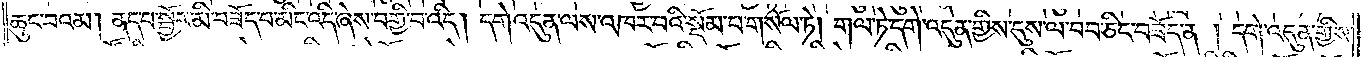ཆུང་བའམ། ནད་པ་སྦྱོར་མི་བཟོད་པ་མིང་འདི་ཞེས་བགྱི་བ་འདི། དགེ་འདུན་ལས་འཁར་བའི་སྡོམ་པ་གསོལ་ཏེ། གལ་ཏེ་དགེ་འདུན་གྱིས་དུས་ལ་བབ་ཅིང་བཟོད་ན། དགེ་འདུན་གྱིས་
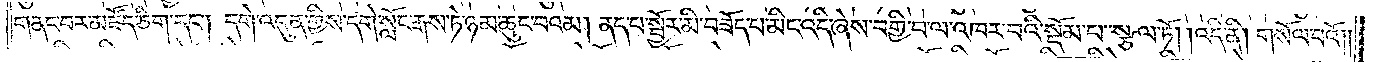གནང་བར་མཛོད་ཅིག་དང༌། དགེ་འདུན་གྱིས་དགེ་སློང་རྒས་ཏེ་ཉམ་ཆུང་བའམ། ནད་པ་སྦྱོར་མི་བཟོད་པ་མིང་འདི་ཞེས་བགྱི་བ་ལ་འཁར་བའི་སྡོམ་པ་སྩལ་ཏོ། །འདི་ནི། གསོལ་བའོ༎
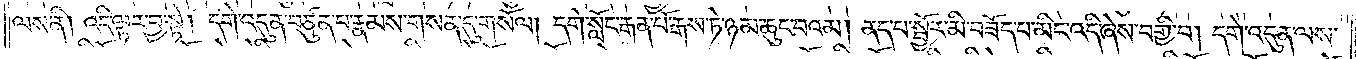ལས་ནི། འདི་ལྟར་བྱ་སྟེ། དགེ་འདུན་བཙུན་པ་རྣམས་གསན་དུ་གསོལ། དགེ་སློང་རྒན་པོ་རྒས་ཏེ་ཉམ་ཆུང་བའམ། ནད་པ་སྦྱོར་མི་བཟོད་པ་མིང་འདི་ཞེས་བགྱི་བ། དགེ་འདུན་ལས་
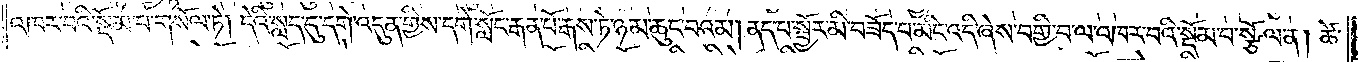འཁར་བའི་སྡོམ་པ་གསོལ་ཏེ། དེའི་སླད་དུ་དགེ་འདུན་གྱིས་དགེ་སློང་རྒན་པོ་རྒས་ཏེ་ཉམ་ཆུང་བའམ། ནད་པ་སྦྱོར་མི་བཟོད་པ་མིང་འདི་ཞེས་བགྱི་བ་ལ་འཁར་བའི་སྡོམ་པ་སྩོལ་ན། ཚེ་
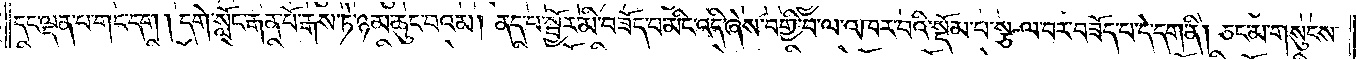དང་ལྡན་པ་གང་དག །དགེ་སློང་རྒན་པོ་རྒས་ཏེ་ཉམ་ཆུང་བའམ། ནད་པ་སྦྱོར་མི་བཟོད་པ་མིང་འདི་ཞེས་བགྱི་བ་ལ་འཁར་བའི་སྡོམ་པ་སྩལ་བར་བཟོད་པ་དེ་དག་ནི། ཅང་མ་གསུངས་
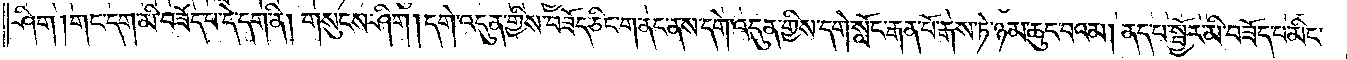ཤིག །གང་དག་མི་བཟོད་པ་དེ་དག་ནི། གསུངས་ཤིག །དགེ་འདུན་གྱིས་བཟོད་ཅིང་གནང་ནས་དགེ་འདུན་གྱིས་དགེ་སློང་རྒན་པོ་རྒས་ཏེ་ཉམ་ཆུང་བའམ། ནད་པ་སྦྱོར་མི་བཟོད་པ་མིང་
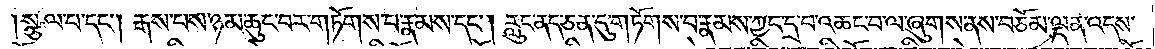སྩལ་པ་དང༌། རྒས་པས་ཉམ་ཆུང་བར་གཏོགས་པ་རྣམས་དང༌། རླུང་ནད་ཅན་དུ་གཏོགས་པ་རྣམས་ཀྱང་དྲ་བ་འཆང་བ་ལ་ཞུགས་ནས་བཅོམ་ལྡན་འདས་
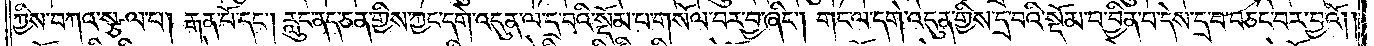ཀྱིས་བཀའ་སྩལ་པ། རྒན་པོ་དང༌། རླུང་ནད་ཅན་གྱིས་ཀྱང་དགེ་འདུན་ལ་དྲ་བའི་སྡོམ་པ་གསོལ་བར་བྱ་ཞིང༌། གང་ལ་དགེ་འདུན་གྱིས་དྲ་བའི་སྡོམ་པ་བྱིན་པ་དེས་དྲ་བ་བཅང་བར་བྱའོ། །
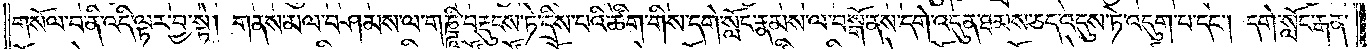གསོལ་པ་ནི་འདི་ལྟར་བྱ་སྟེ། གནས་མལ་བཤམས་ལ་གཎྜཱི་བརྡུངས་ཏེ་དྲིས་པའི་ཚིག་གིས་དགེ་སློང་རྣམས་ལ་བསྒོ་ནས་དགེ་འདུན་ཐམས་ཅད་འདུས་ཏེ་འདུག་པ་དང༌། དགེ་སློང་རྒན་
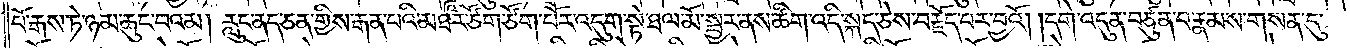པོ་རྒས་ཏེ་ཉམ་ཆུང་བའམ། རླུང་ནད་ཅན་གྱིས་རྒན་པའི་མཐར་ཙོག་ཙོག་པོར་འདུག་སྟེ་ཐལ་མོ་སྦྱར་ནས་ཚིག་འདི་སྐད་ཅེས་བརྗོད་པར་བྱའོ། །དགེ་འདུན་བཙུན་པ་རྣམས་གསན་དུ་
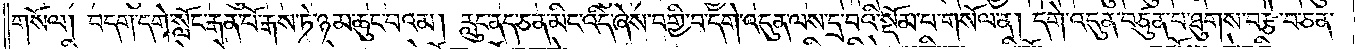གསོལ། བདག་དགེ་སློང་རྒན་པོ་རྒས་ཏེ་ཉམ་ཆུང་བའམ། རླུང་ནད་ཅན་མིང་འདི་ཞེས་བགྱི་བ་དགེ་འདུན་ལས་དྲ་བའི་སྡོམ་པ་གསོལ་ན། དགེ་འདུན་བཙུན་པ་ཐུགས་བརྩེ་བ་ཅན་
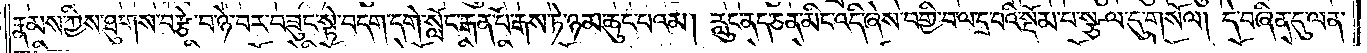རྣམས་ཀྱིས་ཐུགས་བརྩེ་བ་ཉེ་བར་བཟུང་སྟེ་བདག་དགེ་སློང་རྒན་པོ་རྒས་ཏེ་ཉམ་ཆུང་པའམ། རླུང་ནད་ཅན་མིང་འདི་ཞེས་བགྱི་བ་ལ་དྲ་བའི་སྡོམ་པ་སྩལ་དུ་གསོལ། དེ་བཞིན་དུ་ལན་
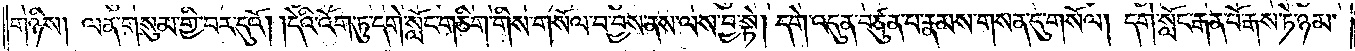གཉིས། ལན་གསུམ་གྱི་བར་དུའོ། །དེའི་འོག་ཏུ་དགེ་སློང་གཅིག་གིས་གསོལ་བ་བྱས་ནས་ལས་བྱ་སྟེ། དགེ་འདུན་བཙུན་པ་རྣམས་གསན་དུ་གསོལ། དགེ་སློང་རྒན་པོ་རྒས་ཏེ་ཉམ་
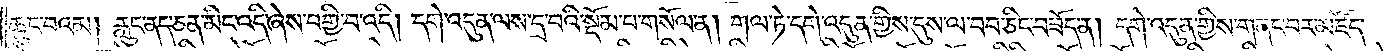ཆུང་བའམ། རླུང་ནད་ཅན་མིང་འདི་ཞེས་བགྱི་བ་འདི། དགེ་འདུན་ལས་དྲ་བའི་སྡོམ་པ་གསོལ་ན། གལ་ཏེ་དགེ་འདུན་གྱིས་དུས་ལ་བབ་ཅིང་བཟོད་ན། དགེ་འདུན་གྱིས་གནང་བར་མཛོད་
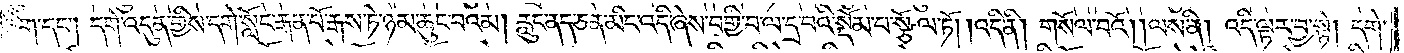ཅིག་དང༌། དགེ་འདུན་གྱིས་དགེ་སློང་རྒན་པོ་རྒས་ཏེ་ཉམ་ཆུང་བའམ། རླུང་ནད་ཅན་མིང་འདི་ཞེས་བགྱི་བ་ལ་དྲ་བའི་སྡོམ་པ་སྩོལ་ཏོ། །འདི་ནི། གསོལ་བའོ། །ལས་ནི། འདི་ལྟར་བྱ་སྟེ། དགེ་
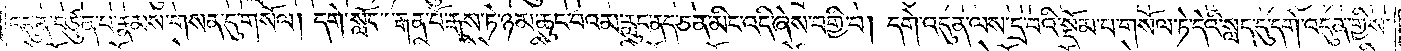འདུན་བཙུན་པ་རྣམས་གསན་དུ་གསོལ། དགེ་སློང་རྒན་པོ་རྒས་ཏེ་ཉམ་ཆུང་བའམ་རླུང་ནད་ཅན་མིང་འདི་ཞེས་བགྱི་བ། དགེ་འདུན་ལས་དྲ་བའི་སྡོམ་པ་གསོལ་ཏེ་དེའི་སླད་དུ་དགེ་འདུན་གྱིས་
